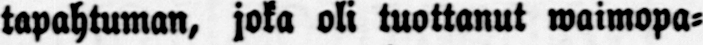tapahtuman, joka oli tuottanut waimopa-
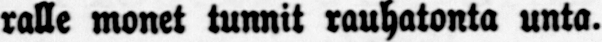ralle monet tunnit rauhatonta unta.
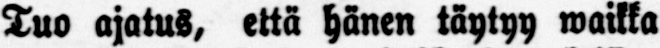Tuo ajatus, että hänen täytyy waikka
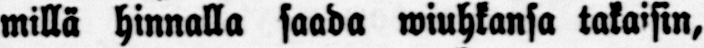millä hinnalla saada wiuhkansa takaisin,
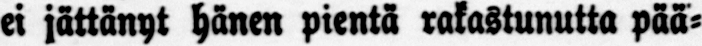ei jättänyt hänen pientä rakastunutta pää-
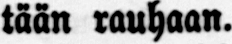tään rauhaan.
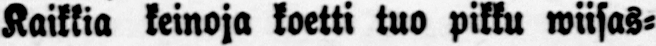Kaikkia keinoja koetti tuo pikku wiisas-
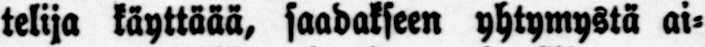telija käyttäää, saadakseen yhtymystä ai-
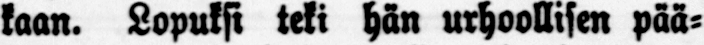kaan. Lopuksi teki hän urhoollisen pää-
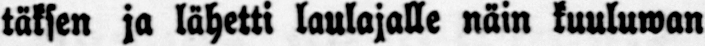täksen ja lähetti laulajalle näin kuuluwan
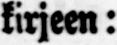kirjeen:
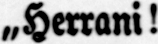„Herrani!
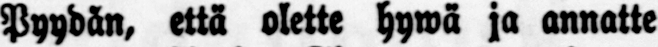Pyydän, että olette hywä ja annatte
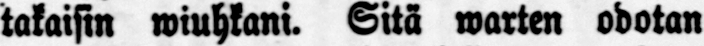takaisin wiuhkani. Sitä warten odotan
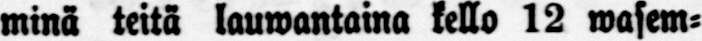minä teitä lauwantaina kello 12 wasem-
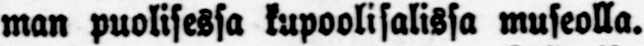man puolisessa kupoolisalissa museolla.
